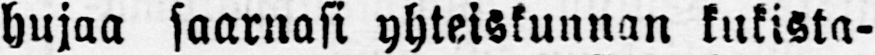hujaa saarnasi yhteiskunnan kukista-
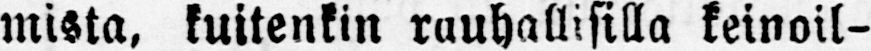mista, kuitenkin rauhallisilla keinoil-
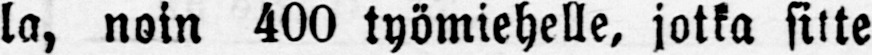la, noin 400 työmiehelle, jotka sitte
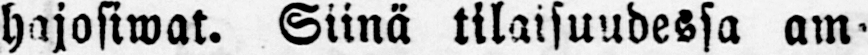hajosiwat. Siinä tilaisuudessa am-
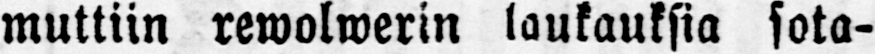muttiin rewolwerin laukauksia sota-
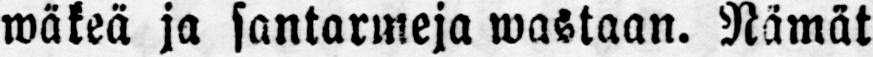wäkeä ja santarmeja wastaan. Rämät
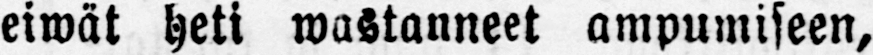eiwät heti wastanneet ampumiseen,
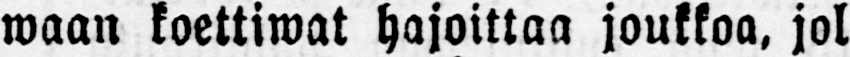waan koettiwat hajoittaa joukkoa, jol
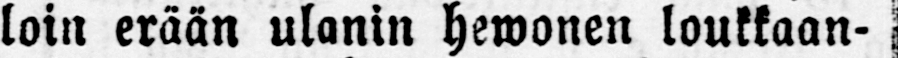loin erään ulanin hewonen loukkaan-
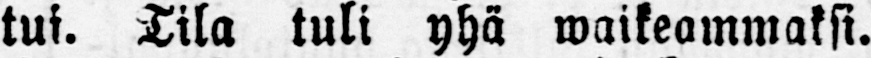tui. Tila tuli yhä waikeammaksi.
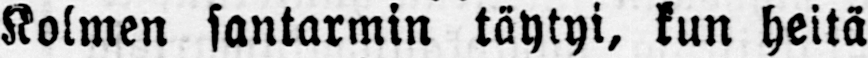Kolmen santarmin täytyi, kun heitä
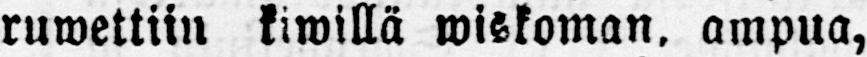ruwettiin kiwillä wiskoman, ampua,
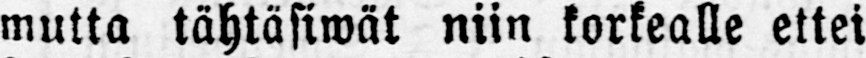mutta tähtäsiwät niin korkealle ettei
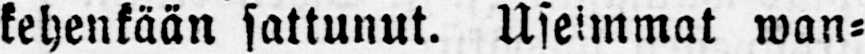kehenkään sattunut. Useimmat wan-
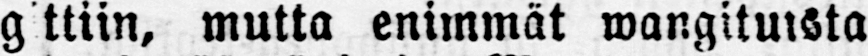gitiin, mutta enimmät wangituista
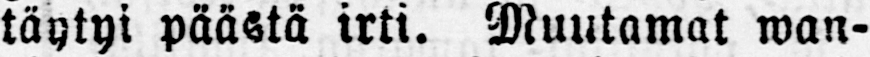täytyi päästä irti. Muutamat wan-
